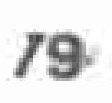19
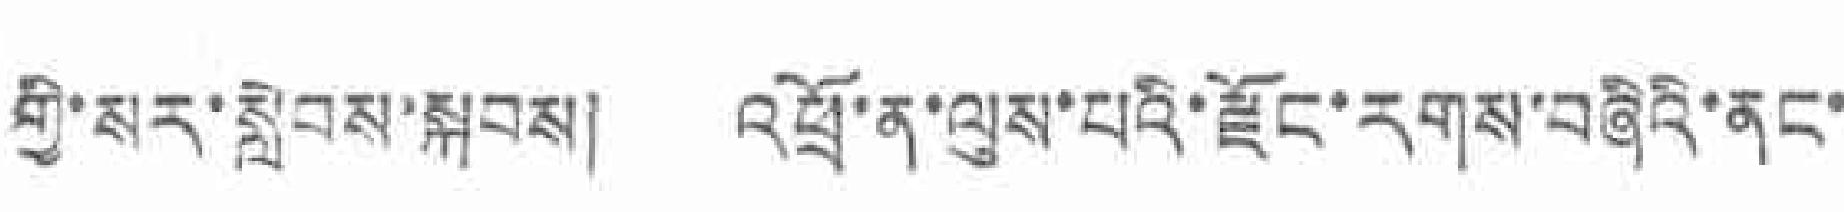གྱི་སར་སླེབས་སྐབས། འཕྲོ་ན་ལུས་པའི་རྫོང་རགས་བཞིའི་ནང་
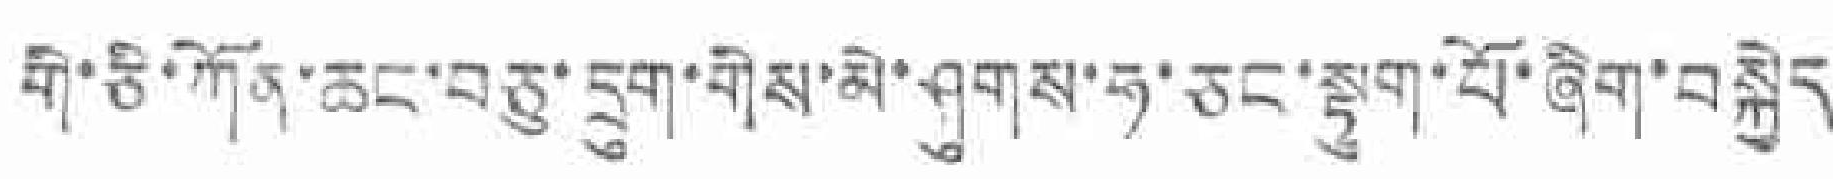གི་ཅི་ཀོན་ཆང་བཅུ་དྲུག་གིས་མེ་ཤུགས་ཧ་ཅང་སྟུག་པོ་ཞིག་བསྐྱེད
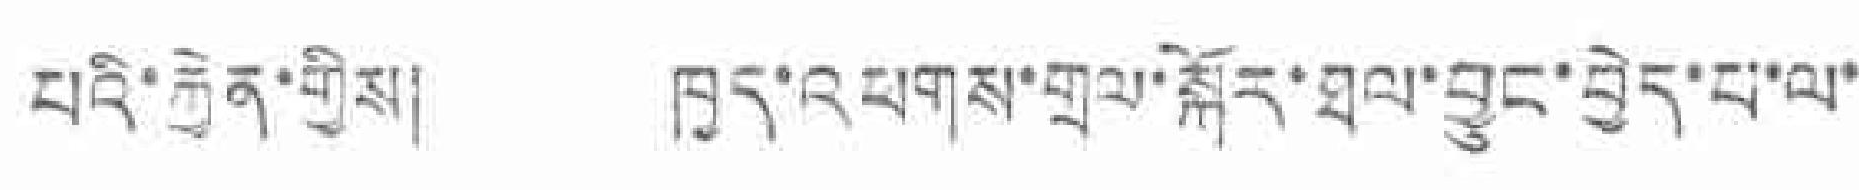པའི་རྐྱེན་གྱིས། ཁྱར་འཕགས་གྲལ་སྐོར་ཐལ་བྱུང་བྱེད་པ་ལ་
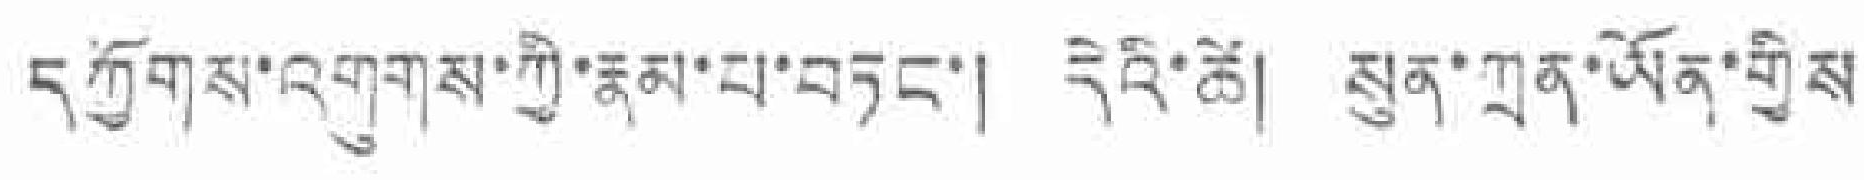དཀྱོགས་འགུགས་ཀྱི་རྣམ་པ་གཏང་། དེའི་ཚེ། སུན་ཀྲན་ཡོན་གྱིས
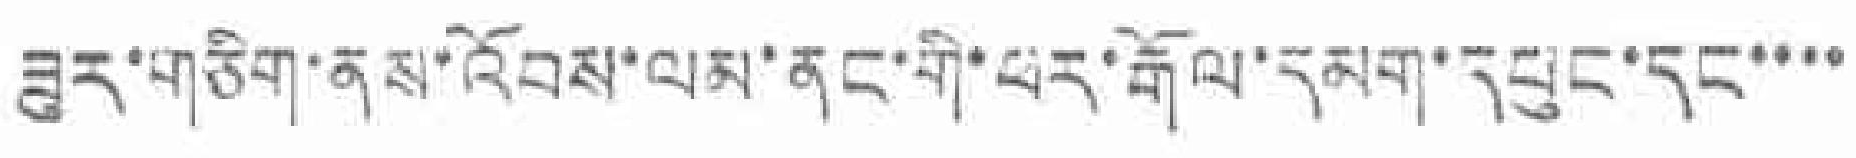ཟུར་གཅིག་ནས་འོབས་ལམ་ནང་གི་ཕར་རྒོལ་དམག་དཔུང་དང་་་་
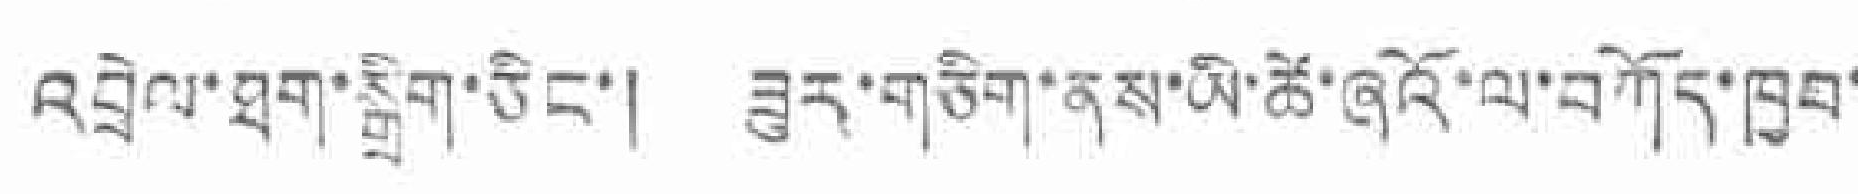འབྲེལ་ཐག་སྒྲིག་ཅིང་། ཟུར་གཅིག་ནས་ཡི་ཚེ་ཞོའོ་ལ་བཀོད་ཁྱབ་
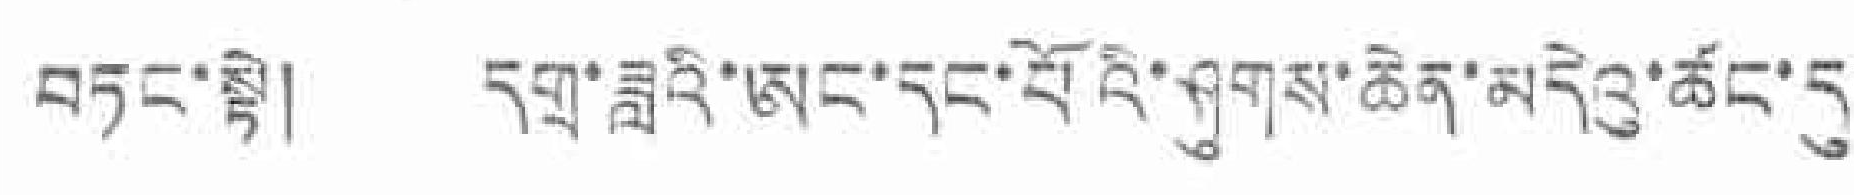བཏང་སྟེ། དགྲ་ཟླའི་ཨང་དང་པོའི་ཤུགས་ཆེན་མདེའུ་ཚང་དུ་
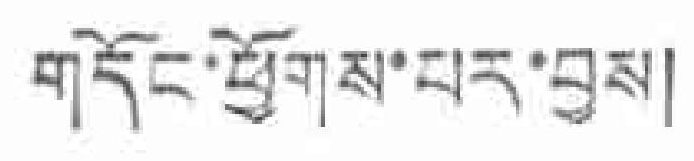གདོང་ཕྱོགས་པར་བྱས།
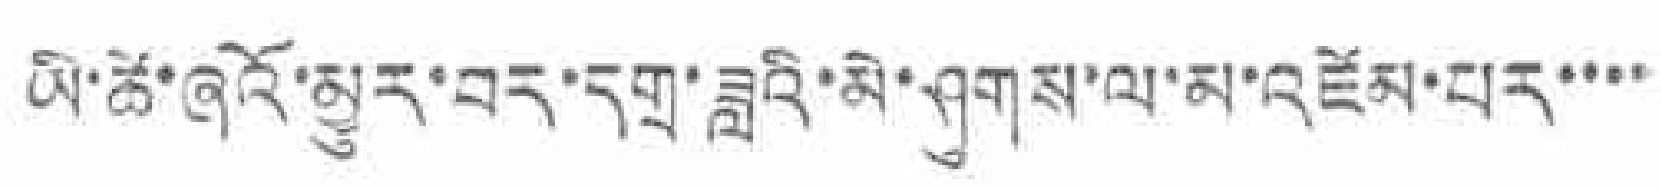ཡི་ཚེ་ཞའོ་མྱུར་བར་དགྲ་ཟླའི་མེ་ཤུགས་ལ་མ་འཛེམ་པར་་་་
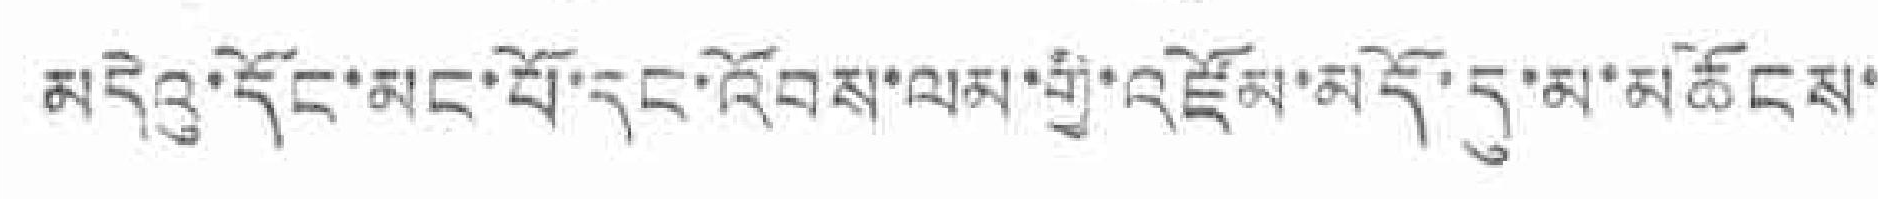མདེའུ་དོང་མང་པོ་དང་འོབས་ལམ་གྱི་འཛོམ་མདོ་དུ་མ་མཆོངས་
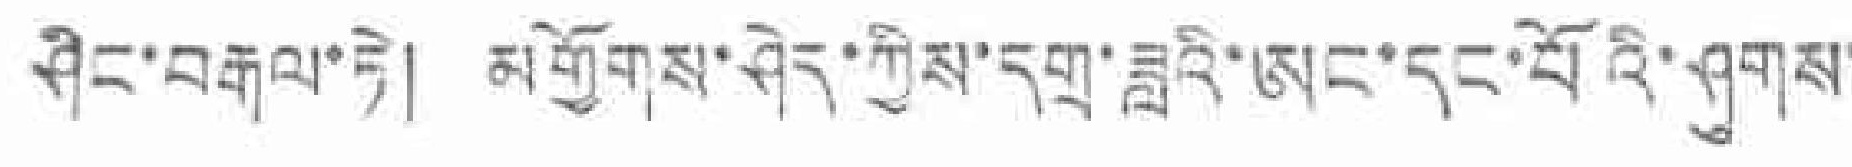ཤིང་བརྒལ་ཏེ། མགྱོགས་ཤེད་ཀྱིས་དགྲ་ཟླའི་ཨང་དང་པོའི་ཤུགས་
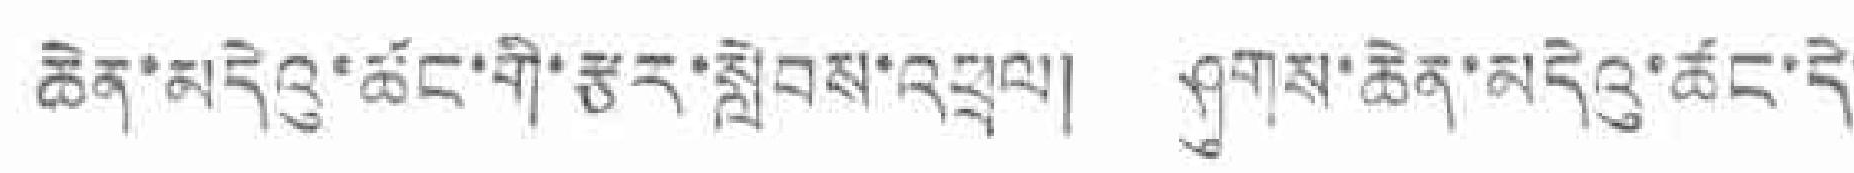ཆེན་མདེའུ་ཚང་གི་རྩར་སླེབས་འཕྲུལ། ཤུགས་ཆེན་མདེའུ་ཚང་དེ་
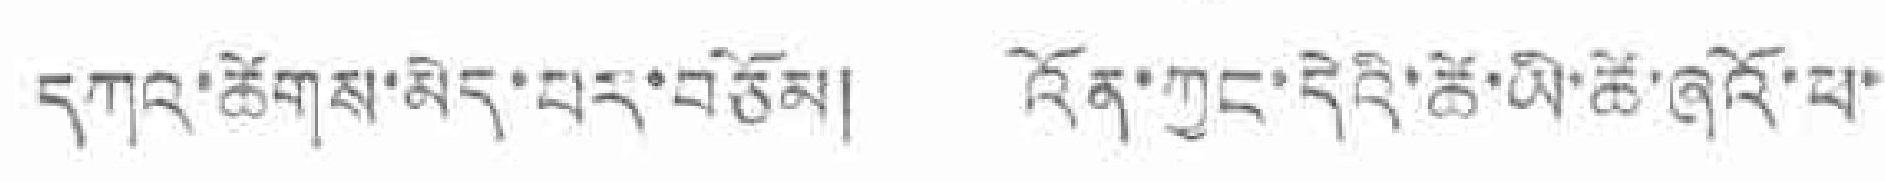དཀའ་ཚེགས་མེད་པར་བཅོམ། འོན་ཀྱང་དེའི་ཚེ་ཡི་ཚེ་ཞའོ་ཕ་
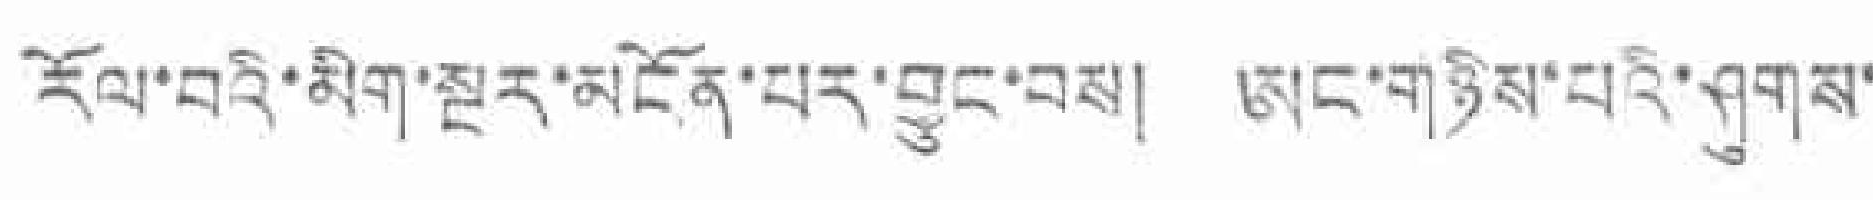རོལ་བའི་མིག་སྔར་མངོན་པར་བྱུང་བས། ཨང་གཉིས་པའི་ཤུགས་
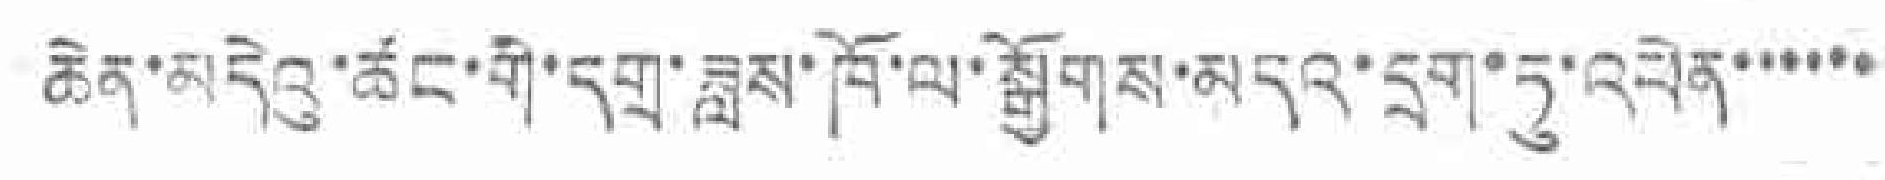ཆེན་མདེའུ་ཚང་གི་དགྲ་ཟླས་ཁོ་ལ་སྒྱོགས་མདའ་དྲག་ཏུ་འཕེན་་་་་་
